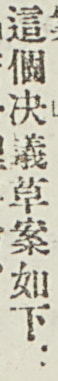這個決議草案如下：
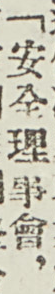「安全理事會，
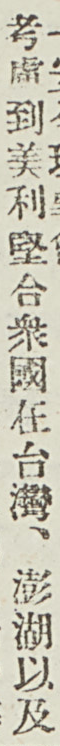考慮到美利堅合衆國在台灣、澎湖以及
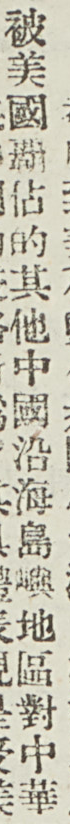被美國霸佔的其他中國沿海島嶼地區對中華
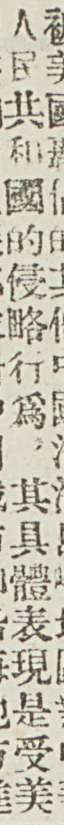人民共和國的侵略行爲，其具體表現是受美
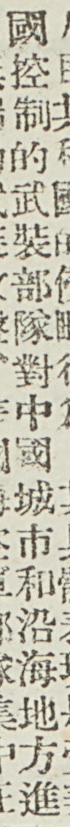國控制的武裝部隊對中國城市和沿海地方進
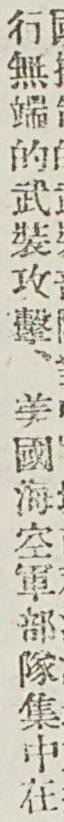行無端的武裝攻擊、美國海空軍部隊集中在
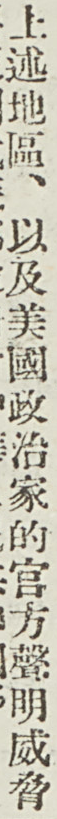上述地區、以及美國政治家的關放聲明威脅
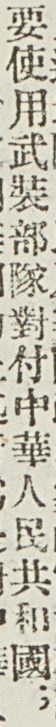要使用武裝部隊對付中華人民共和國。
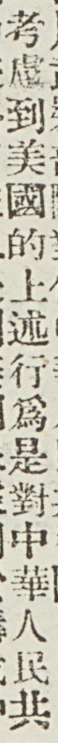考慮到美國的上述行爲是對中華任命共
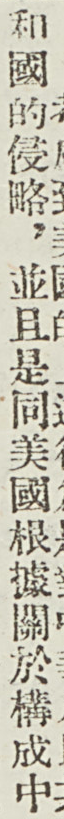和國的侵略，並且是同美國根據關於構成中
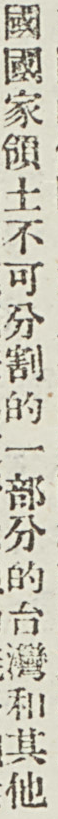國國家領土不可分割的一部分的台灣和其他
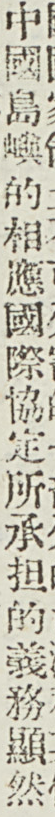中國島嶼的相應國際協定所承担的義務顯然
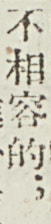不相容的；
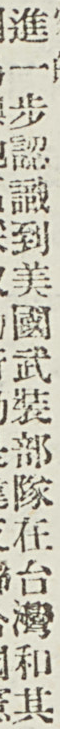進一步認識到美國武裝部隊在台灣和其
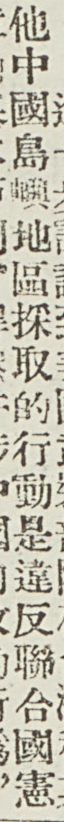他中國島嶼地區採取的行動是違反聯合國憲
